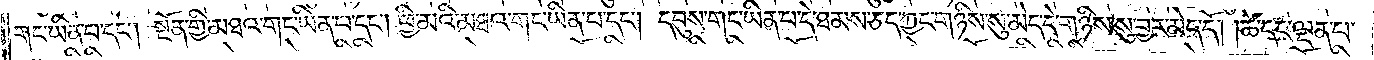གང་ཡིན་པ་དང༌། སྔོན་གྱི་མཐའ་གང་ཡིན་པ་དང༌། ཕྱི་མའི་མཐའ་གང་ཡིན་པ་དང༌། དབུས་གང་ཡིན་པ་དེ་ཐམས་ཅད་ཀྱང་གཉིས་སུ་མེད་དེ་གཉིས་སུ་བྱར་མེད་དོ། །ཚེ་དང་ལྡན་པ་
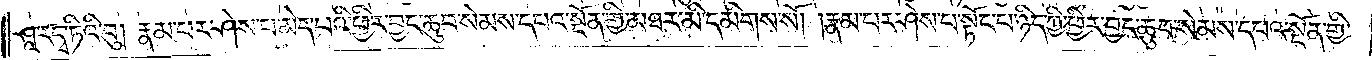ཤཱ་རདྭ་ཏིའི་བུ། རྣམ་པར་ཤེས་པ་མེད་པའི་ཕྱིར་བྱང་ཆུབ་སེམས་དཔའ་སྔོན་གྱི་མཐར་མི་དམིགས་སོ། །རྣམ་པར་ཤེས་པ་སྟོང་པ་ཉིད་ཀྱི་ཕྱིར་བྱང་ཆུབ་སེམས་དཔའ་སྔོན་གྱི་
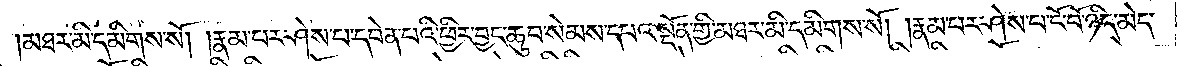མཐར་མི་དམིགས་སོ། །རྣམ་པར་ཤེས་པ་དབེན་པའི་ཕྱིར་བྱང་ཆུབ་སེམས་དཔའ་སྔོན་གྱི་མཐར་མི་དམིགས་སོ། །རྣམ་པར་ཤེས་པ་ངོ་བོ་ཉིད་མེད་
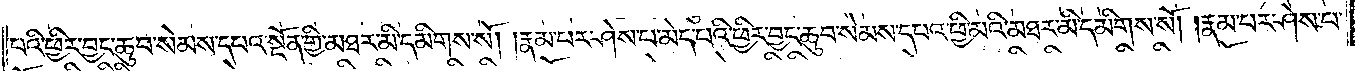པའི་ཕྱིར་བྱང་ཆུབ་སེམས་དཔའ་སྔོན་གྱི་མཐར་མི་དམིགས་སོ། །རྣམ་པར་ཤེས་པ་མེད་པའི་ཕྱིར་བྱང་ཆུབ་སེམས་དཔའ་ཕྱི་མའི་མཐར་མི་དམིགས་སོ། །རྣམ་པར་ཤེས་པ་
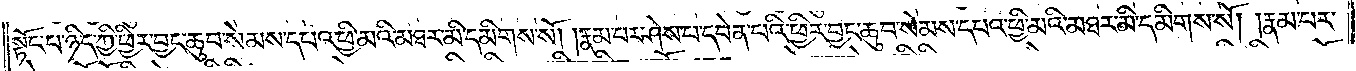སྟོང་པ་ཉིད་ཀྱི་ཕྱིར་བྱང་ཆུབ་སེམས་དཔའ་ཕྱི་མའི་མཐར་མི་དམིགས་སོ། །རྣམ་པར་ཤེས་པ་དབེན་པའི་ཕྱིར་བྱང་ཆུབ་སེམས་དཔའ་ཕྱི་མའི་མཐར་མི་དམིགས་སོ། །རྣམ་པར་
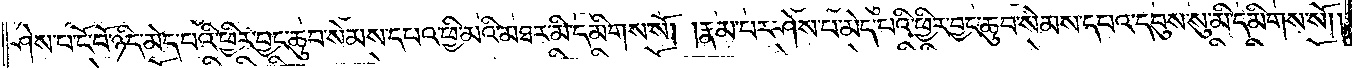ཤེས་པ་ངོ་བོ་ཉིད་མེད་པའི་ཕྱིར་བྱང་ཆུབ་སེམས་དཔའ་ཕྱི་མའི་མཐར་མི་དམིགས་སོ། །རྣམ་པར་ཤེས་པ་མེད་པའི་ཕྱིར་བྱང་ཆུབ་སེམས་དཔའ་དབུས་སུ་མི་དམིགས་སོ། །
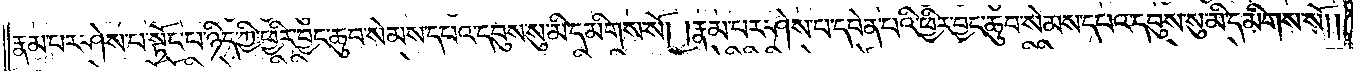རྣམ་པར་ཤེས་པ་སྟོང་པ་ཉིད་ཀྱི་ཕྱིར་བྱང་ཆུབ་སེམས་དཔའ་དབུས་སུ་མི་དམིགས་སོ། །རྣམ་པར་ཤེས་པ་དབེན་པའི་ཕྱིར་བྱང་ཆུབ་སེམས་དཔའ་དབུས་སུ་མི་དམིགས་སོ། །
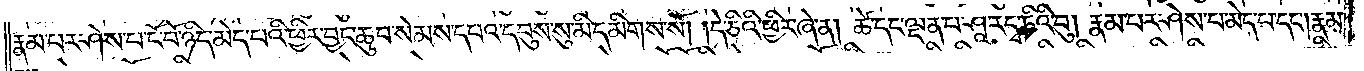རྣམ་པར་ཤེས་པ་ངོ་བོ་ཉིད་མེད་པའི་ཕྱིར་བྱང་ཆུབ་སེམས་དཔའ་དབུས་སུ་མི་དམིགས་སོ། །དེ་ཅིའི་ཕྱིར་ཞེ་ན། ཚེ་དང་ལྡན་པ་ཤཱ་རདྭ་ཏིའི་བུ། རྣམ་པར་ཤེས་པ་མེད་པ་དང༌། རྣམ་
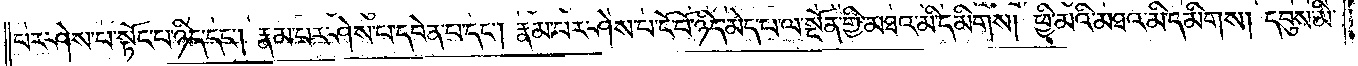པར་ཤེས་པ་སྟོང་པ་ཉིད་དང༌། རྣམ་པར་ཤེས་པ་དབེན་པ་དང༌། རྣམ་པར་ཤེས་པ་ངོ་བོ་ཉིད་མེད་པ་ལ་སྔོན་གྱི་མཐའ་མི་དམིགས། ཕྱི་མའི་མཐའ་མི་དམིགས། དབུས་མི་
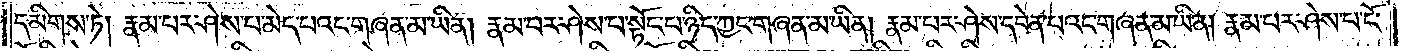དམིགས་ཏེ། རྣམ་པར་ཤེས་པ་མེད་པའང་གཞན་མ་ཡིན། རྣམ་པར་ཤེས་པ་སྟོང་པ་ཉིད་ཀྱང་གཞན་མ་ཡིན། རྣམ་པར་ཤེས་པ་དབེན་པའང་གཞན་མ་ཡིན། རྣམ་པར་ཤེས་པ་ངོ་
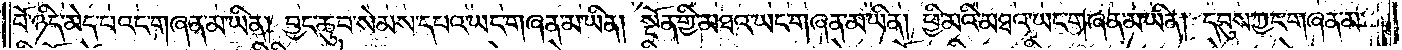བོ་ཉིད་མེད་པའང་གཞན་མ་ཡིན། བྱང་ཆུབ་སེམས་དཔའ་ཡང་གཞན་མ་ཡིན། སྔོན་གྱི་མཐའ་ཡང་གཞན་མ་ཡིན། ཕྱི་མའི་མཐའ་ཡང་གཞན་མ་ཡིན། དབུས་ཀྱང་གཞན་མ་
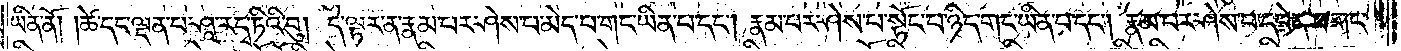ཡིན་ནོ། །ཚེ་དང་ལྡན་པ་ཤཱ་རདྭ་ཏིའི་བུ། དེ་ལྟར་ན་རྣམ་པར་ཤེས་པ་མེད་པ་གང་ཡིན་པ་དང༌། རྣམ་པར་ཤེས་པ་སྟོང་པ་ཉིད་གང་ཡིན་པ་དང༌། རྣམ་པར་ཤེས་པ་དབེན་པ་གང་
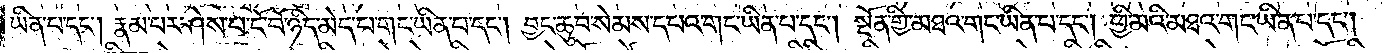ཡིན་པ་དང༌། རྣམ་པར་ཤེས་པ་ངོ་བོ་ཉིད་མེད་པ་གང་ཡིན་པ་དང༌། བྱང་ཆུབ་སེམས་དཔའ་གང་ཡིན་པ་དང༌། སྔོན་ཡི་མཐའ་གང་ཡིན་པ་དང༌། ཕྱི་མའི་མཐའ་གང་ཡིན་པ་དང༌།
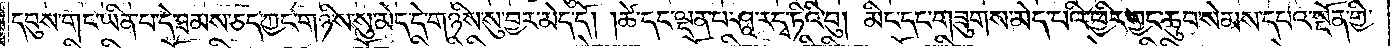དབུས་གང་ཡིན་པ་དེ་ཐམས་ཅད་ཀྱང་གཉིས་སུ་མེད་དེ་གཉིས་སུ་བྱར་མེད་དོ། །ཚེ་དང་ལྡན་པ་ཤཱ་རདྭ་ཏིའི་བུ། མིང་དང་གཟུགས་མེད་པའི་ཕྱིར་བྱང་ཆུབ་སེམས་དཔའ་སྔོན་གྱི་
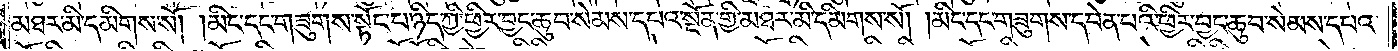མཐར་མི་དམིགས་སོ། །མིང་དང་གཟུགས་སྟོང་པ་ཉིད་ཀྱི་ཕྱིར་བྱང་ཆུབ་སེམས་དཔའི་སྔོན་གྱི་མཐར་མི་དམིགས་སོ། །མིང་དང་གཟུགས་དབེན་པའི་ཕྱིར་བྱང་ཆུབ་སེམས་དཔའ་
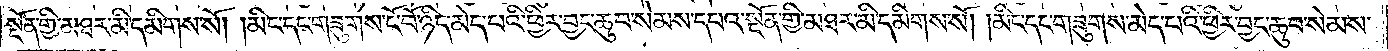སྔོན་གྱི་མཐར་མི་དམིགས་སོ། །མིང་དང་གཟུགས་ངོ་བོ་ཉིད་མེད་པའི་ཕྱིར་བྱང་ཆུབ་སེམས་དཔའ་སྔོན་གྱི་མཐར་མི་དམིགས་སོ། །མིང་དང་གཟུགས་མེད་པའི་ཕྱིར་བྱང་ཆུབ་སེམས་
